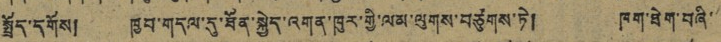སྤྲོད་དགོས། ཁྱབ་གདལ་དུ་ཐོན་སྐྱེད་འགན་ཁུར་གྱི་ལམ་ལུགས་བཙུགས་ཏེ། ཁག་ཐེག་བཞི་
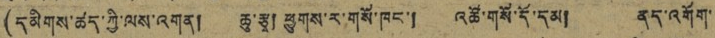(དམིགས་ཚད་ཀྱི་ལས་འགན། ཆུ་རྩྭ། ཕྱུགས་ར་གསོ་ཁང་། འཚོ་གསོ་དོ་དམ། ནད་འགོག་
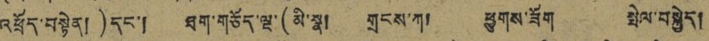འཕྲོད་བསྟེན།)དང་། ཐག་གཅོད་ལྔ་(མི་སྣ། གྲངས་ཀ། ཕྱུགས་ཟོག སྤེལ་བསྐྱེད།
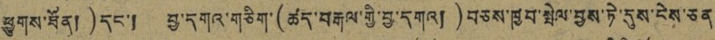ཕྱུགས་ཐོན།)དང་། བྱ་དགའ་གཅིག་(ཚད་བརྒལ་གྱི་བྱ་དགའ།)བཅས་ཁྱབ་སྤེལ་བྱས་ཏེ་དུས་ངེས་ཅན
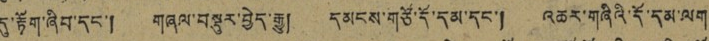དུ་རྟོག་ཞིབ་དང་། གཞལ་བསྡུར་བྱེད་རྒྱུ། དམངས་གཙོ་དོ་དམ་དང་། འཆར་གཞིའི་དོ་དམ་ལག
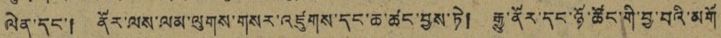ལེན་དང་། ནོར་ལས་ལམ་ལུགས་གསར་འཛུགས་དང་ཆ་ཚང་བྱས་ཏེ། རྒྱུ་ནོར་དང་ཚོང་གི་བྱ་བའི་མགོ
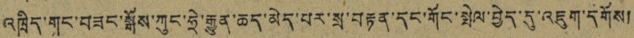འཁྲིད་གང་བཟང་སྒོས་ཀུང་ཧྲེ་རྒྱུན་ཆད་མེད་པར་སྲ་བརྟན་དང་གོང་སྤེལ་བྱེད་དུ་འཇུག་དགོས།
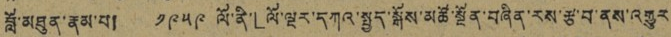བློ་མཐུན་རྣམ་པ། ༡༩༥༩ ལོ་ནི་「ལོ་ལྔར་དཀའ་སྤྱད་སྒོས་མཚོ་སྔོན་བཞིན་རས་རྩ་བ་ནས་འགྱུར
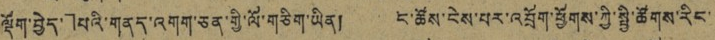ལྡོག་བྱེད་」པའི་གནད་འགག་ཅན་གྱི་ལོ་གཅིག་ཡིན། ང་ཚོས་ངེས་པར་འབྲོག་ཕྱོགས་ཀྱི་སྤྱི་ཚོགས་རིང་
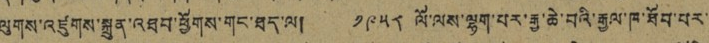ལུགས་འཛུགས་སྐྲུན་འཐབ་ཕྱོགས་གང་ཐད་ལ། ༡༩༥༨ ལོ་ལས་ལྷག་པར་རྒྱ་ཆེ་བའི་རྒྱལ་ཁ་ཐོབ་པར་
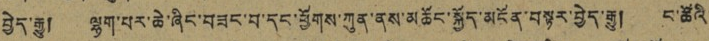བྱེད་རྒྱུ། ལྷག་པར་ཆེ་ཞིང་བཟང་བ་དང་ཕྱོགས་ཀུན་ནས་མཆོང་སྐྱོད་མངོན་བསྟར་བྱེད་རྒྱུ། ང་ཚོའི་
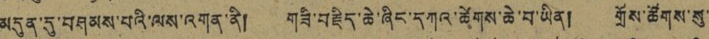མདུན་དུ་བཤམས་པའི་ལས་འགན་ནི། གཟི་བརྗིད་ཆེ་ཞིང་དཀའ་ཚེགས་ཆེ་བ་ཡིན། གྲོས་ཚོགས་སུ་
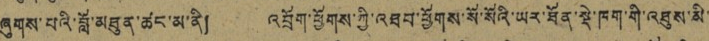ཞུགས་པའི་བློ་མཐུན་ཚང་མ་ནི། འབྲོག་ཕྱོགས་ཀྱི་འཐབ་ཕྱོགས་སོ་སོའི་ཡར་ཐོན་སྡེ་ཁག་གི་འཐུས་མི་
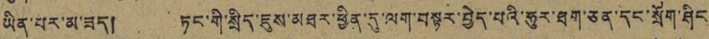ཡིན་པར་མ་ཟད། ཏང་གི་སྲིད་ཇུས་མཐར་ཕྱིན་དུ་ལག་བསྟར་བྱེད་པའི་ཧུར་ཐག་ཅན་དང་སྲོག་ཤིང་
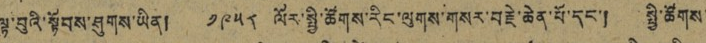ལྟ་བུའི་སྟོབས་ཤུགས་ཡིན། ༡༩༥༨ ལོར་སྤྱི་ཚོགས་རིང་ལུགས་གསར་བརྗེ་ཆེན་པོ་དང་། སྤྱི་ཚོགས་་
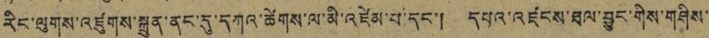རིང་ལུགས་འཛུགས་སྐྲུན་ནང་དུ་དཀའ་ཚེགས་ལ་མི་འཛེམ་པ་དང་། དཔའ་འཛངས་ཐལ་བྱུང་གིས་གཤིས་་
